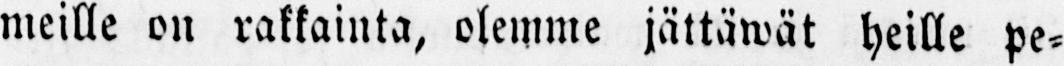meille on rakkainta, olemme jättäwät heille pe-
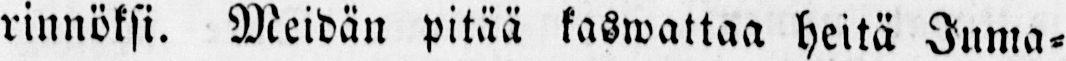rinnöksi. Meidän pitää kaswattaa heitä Juma-
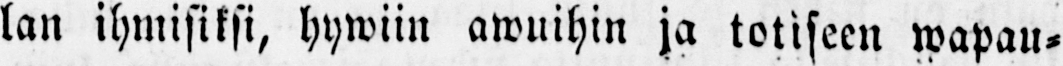lan ihmisiksi, hywiin awuihin ja totiseen wapau-
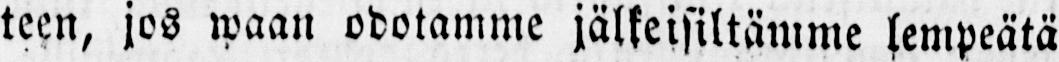teen, jos waan odotamme jälkeisiltämme lempeätä
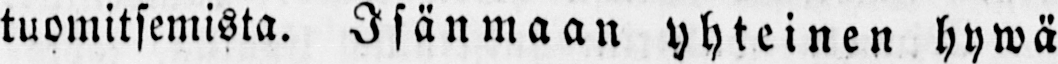tuomitsemista. Isänmaan yhteinen hywä
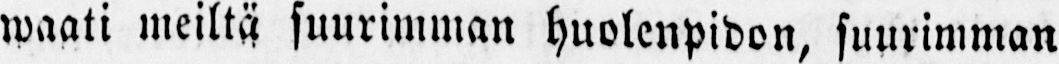waati meiltä suurimman huolenpidon, suurimman
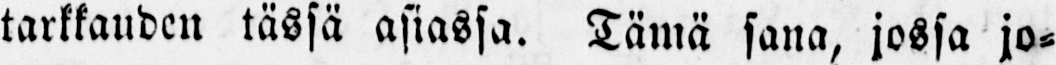tarkkauden tässä asiassa. Tämä sana, jossa jo-
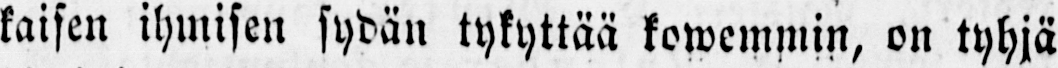kaisen ihmisen sydän tykyttää kowemmin, on tyhjä
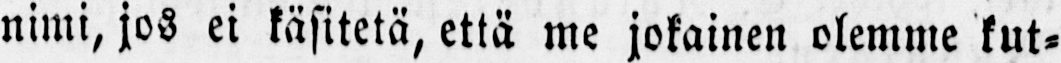nimi, jos ei käsitetä, että me jokainen olemme kut-
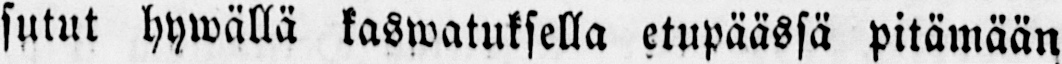sutut hywällä kaswatuksella etupäässä pitämään
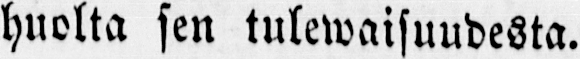huolta sen tulewaisuudesta.
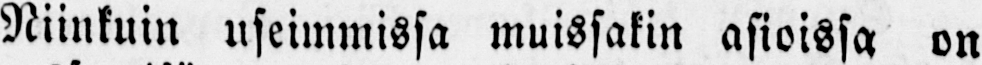Niinkuin useimmissa muissakin asioissa on
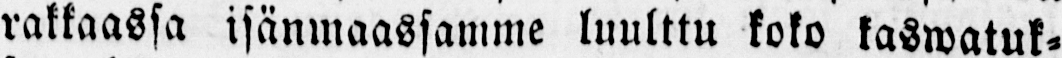rakkaassa isänmaassamme luulttu koko kaswatuk-
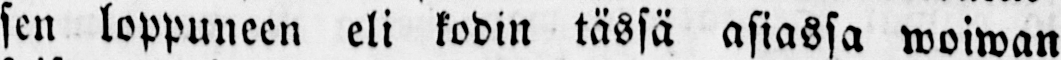sen loppuneen eli kodin tässä asiassa woiwan
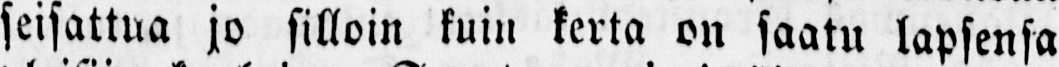seisattua jo silloin kuin kerta on saatu lapsensa
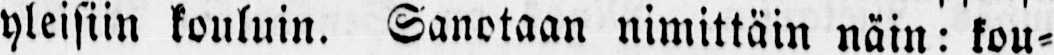yleisiin kouluin. Sanotaan nimittäin näin: kou-
